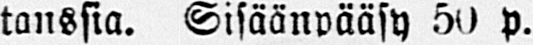tanssia. Sisäänpääsy 50 p.
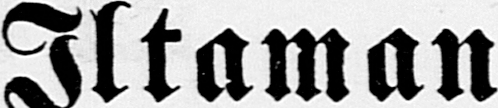Iltaman
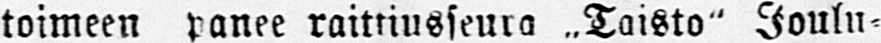toimeen panee raittiusseura „Taisto" Joulu-
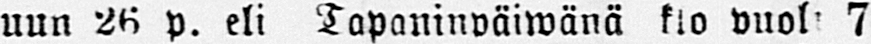uun 26 p. eli Tapaninpäiwänä klo puol 7
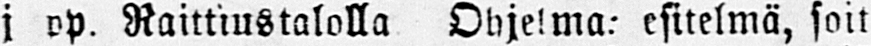j op. Raittiustalolla Ohjelma: esitelmä, soit
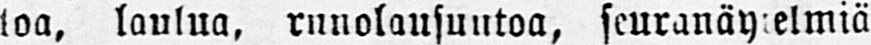toa, laulua, runolausuntoa, seuranäytelmiä
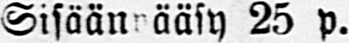Sisäännääsy 25 p.
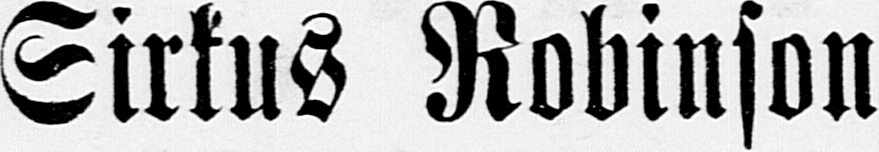Sirkus Robinson
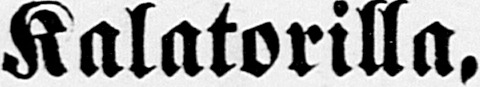Kalatorilla,
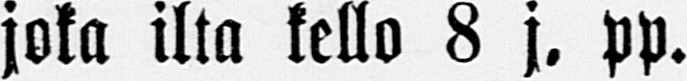joka ilta kello 8 j. pp.
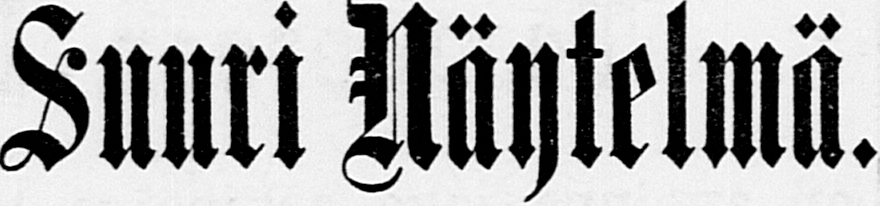Suuri Näytelmä.
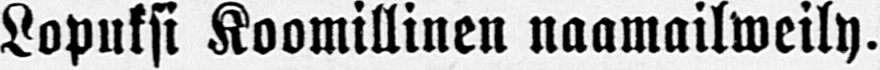Lopuksi Koomillinen naamailweily.
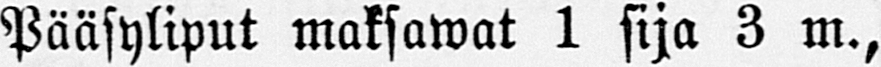Pääsyliput maksawat 1 sija 3 m.,
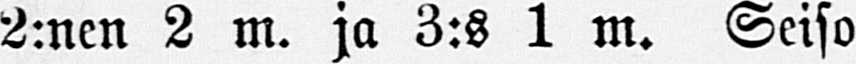2:nen 2 m. ja 3:s 1 m. Seiso
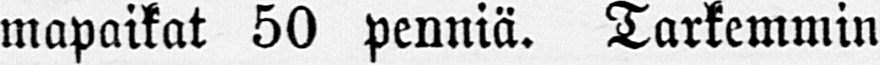mapaikat 50 penniä. Tarkemmin
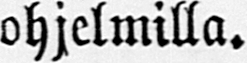ohjelmilla.
